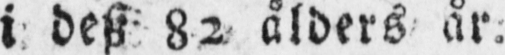i desz 82 ålders år.
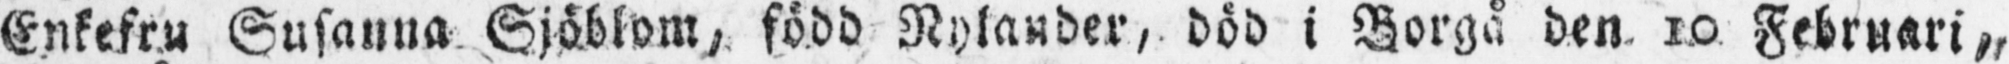Enkefru Susanna Sjöblom, född Nylander, död i Borgå den 10 Februari,
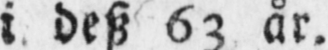i desz 63 år.
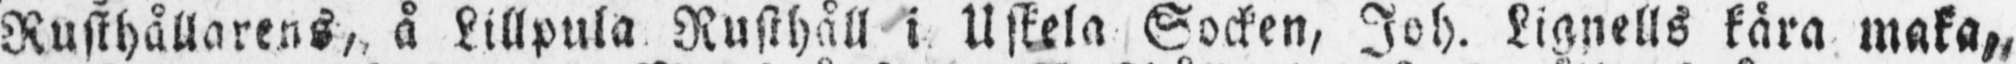Rusthållarens, å Lillpula Rusthåll i Uskela Socken, Joh. Lignells kära maka,
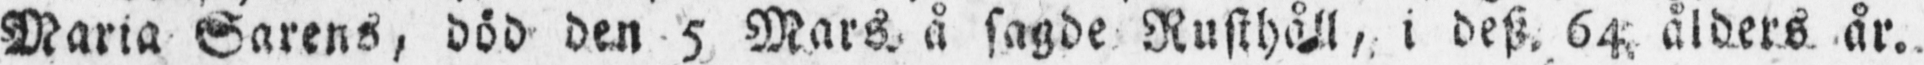Maria Sarens, död den 5 Mars å sagde Rusthåll, i desz 64 ålders år.
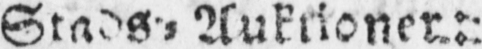Stads-Auktioner:
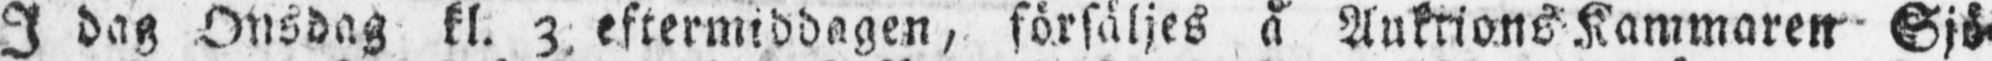I dag Onsdag kl. 3 eftermiddagen, försäljes å AuktionsKammaren Sjö-
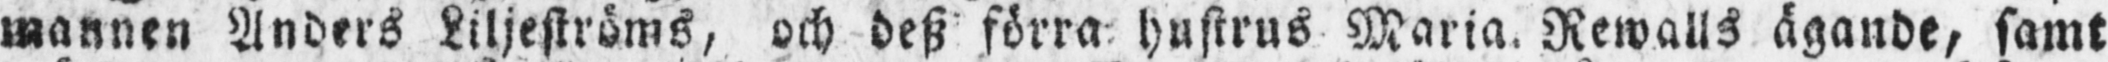mannen Anders Liljeströms, och desz förra hustrus Maria Rewalls ägande, samt
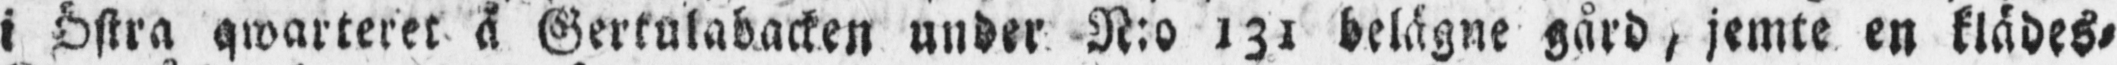i Östra qwarteret å Gertulabacken under N:o 131 belägne gård, jemte en klädes-
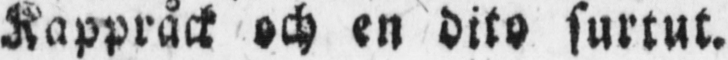Kappråck och en dito surtut.
